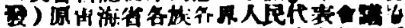發）原靑海省各族各界人民代表會議協
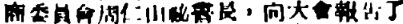商委員會周仁山祕書長，向大會報告了
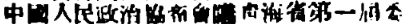中國人民政治協商會議靑海省第一屆委
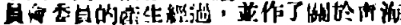員會委員的產生經過，並作了關於靑海
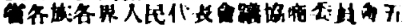省各族各界人民代表會議協商委員會五
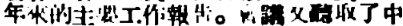年來的主要工作報告。會議又聽取了中
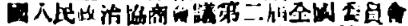國人民政治協商會議第二屆全國委員會
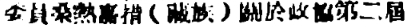委員桑熱嘉措（藏族）關於政協第二屆
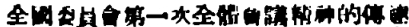全國委員會第一次全體會議精神的傳達
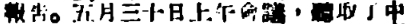報告。五月三十日上午會議，聽取了中
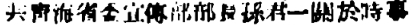共靑海省委宣傳部部長孫君一關於時事
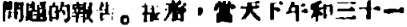問題的報告。接着，當天下午和三十一
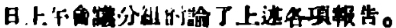日上午會議分組討論了上述各項報告。
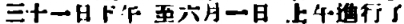三十一日下午 至六月一日 上午進行了
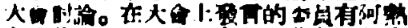大會討論。在大會上發言的委員有阿熱
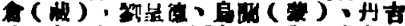倉（藏）、劉呈德、烏蘭（蒙）、丹吉
